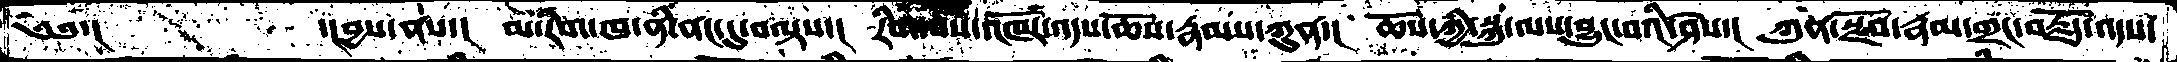༄༅་།      ་།བྱས་ནས་།  མ་རིག་ཁ་ནི་ནང་དུ་བལྟས་།  རིག་པས་འཁོར་འདས་ཆོས་རྣམས་ཀུན་།  ཆོས་ཀྱི་སྐུ་ལས་བྱུང་བའི་ཤེས་།  ཀུན་སྫོབ་རྣམ་གྲང་བརྗོད་འདས་
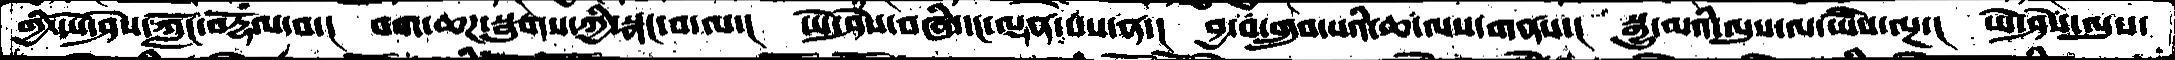གྱི་ཡེ་ཤེས་ཀློང་བརྡོལ་བ་།  བག་ཆཌ་སྦུགས་ཀྱི་སྣང་བ་ལ་།  ཡེ་ཤེས་བཞི་དང་ལྡན་པས་ན་།  བྱ་བ་གྲུབ་པའི་ཆ་ལས་གནས་།  སྒྱུ་མའི་ལུས་ལ་ཡཻས་ལྔ་།  ཡེ་ཤེས་ལུས་
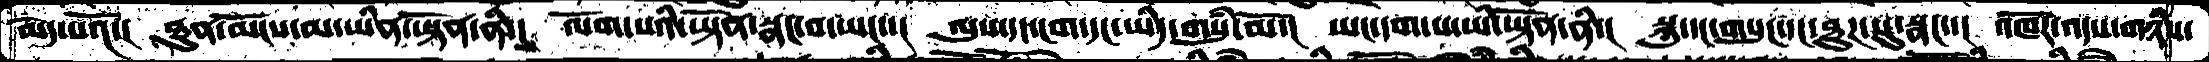མེད་པའོ་།  ཐུན་མོངས་མ་ཡིན་ཡྟོན་ནི་།  ལོག་པའི་ཡྟོན་སྣང་བ་ཡང་་།  ལུས་དང་ངག་དང་ཡིད་གསུཾ་མོ་།  ཡང་དག་པ་ཡི་ཡྟོན་ནི་།  སྐུ་དང་གསུང་དང་ཐུཌ་སུ་སྣང་་།  འཁོར་འདས་གཉིས་
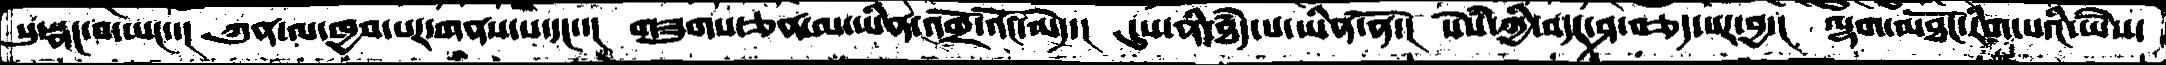སུ་སྣང་བ་ཡང་་།  ཀུན་ལ་ཁྱབ་པར་གནས་པ་དང་་།  གཟུགས་ཅན་མ་ཡིན་འགྲོ་འོང་མེད་།  དུས་ནི་ཐཾད་པ་ཡིན་ནོ་།  སེཾས་ཀྱི་བདར་ཤ་བཅད་པར་བྱ་།  ལྷག་མཐོང་རིག་པའི་ཡཻས་
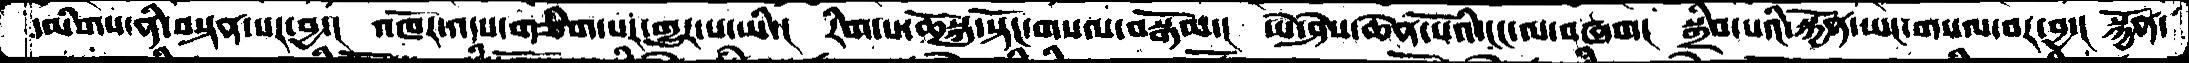དམིགས་ནི་བསྟན་པར་བྱ་།  འཁོར་འདས་གཅིག་པར་གྱུར་པ་ཡི་།  རིག་པ་ཆོསྐུ་སྟོང་གསལ་བསྒོམ་།  ཡེ་ཤེས་ཆེན་པོའི་ངང་ལ་བཞག།  སྒྲིབ་པའི་སྐྱོན་ཡང་གསལ་བར་བྱ་།  སྐྱོན་
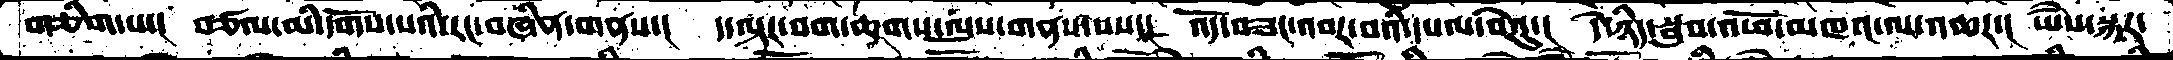གཅིག་པ་།  བཙལ་མི་དགོས་པའི་རང་བཞིན་གནས་།  ད་ལྟར་བག་ཆགས་ལུས་གནས་པས་།  འོད་བཟང་འབར་བའི་དཔལ་བེའུ་།  དེ་ཉིད་སྦུབ་འཕོ་མཁའ་ལ་འཆར་།  ཡཻས་སྐར་
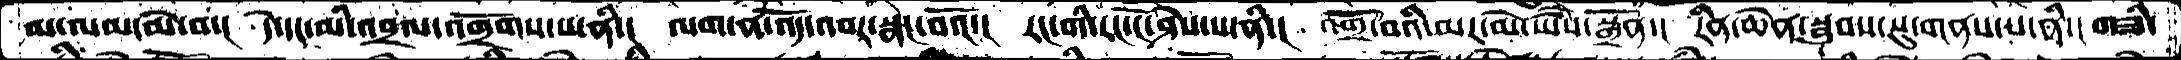མ་ལམ་མེ་བ་།  དེ་དང་མི་འབྲལ་འགྲོགས་པ་ནི་།  ལག་ན་འོད་འབར་སྣང་བའོ་།  རང་གི་རང་ངོ་ཤེས་པ་ནི་།  འགྲོ་བའི་མར་མེ་ཡཻས་སྒྲོན་། རིན་ཆེན་སྦུབས་སུ་གནས་པ་ནི་།  གཟི་
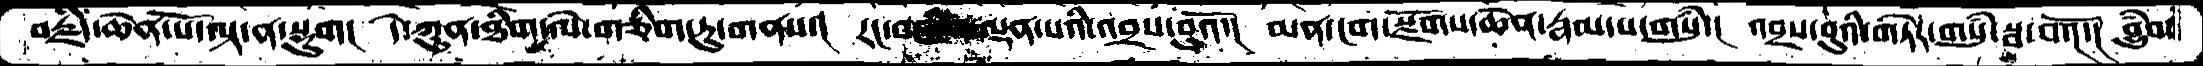བརྗིད་ཆེན་པོ་ལྟ་ན་སྡུག།  དེ་ཀུན་ཐིག་ལེ་གཅིག་ཏུ་གནས་།  རང་བཞིན་   ལྡན་པའི་འབྲས་བུའོ་།  མན་ངག་སྫོགས་ཆེན་རྣམ་པ་གསུཾ་།  འབྲས་བུའི་གཏེར་གསུཾ་སྦ་བའོ་།  བྱུཾབ་
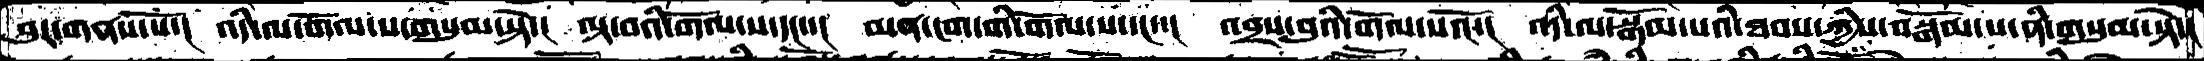བུར་གནས་སོ་།  འདི་ལ་གོལ་ས་གསུམ་སྟེ་།  ལྟ་བའི་གོལ་ས་དང་་།  མན་ངག་གི་གོལ་ས་དང་་།  འབྲས་བུའི་གོལ་སའོ་།  འདི་ལ་སྒོམ་པའི་ཐབས་ཀྱིས་བསྒོམ་པ་ནི་གསུམ་སྟེ་།
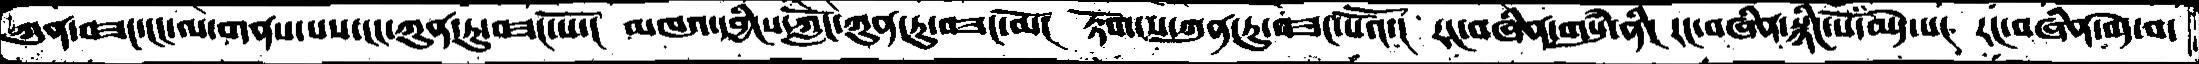ཀུན་བཟང་ངང་ལ་གནས་པས་ངང་ཀུན་ཏུ་བཟང་པོ་།  མཁའ་དབྱིངས་ཀློངེ་ཀུན་ཏུ་བཟང་མོ།  རྟོག་པ་ཀུན་ཏུ་བཟང་པོའོ་།  རང་བཞིན་གསུཾ་ནི་རང་བཞིན་སྙིང་པོ་མེད་པ།  རང་བཞིན་བདེ་བ་
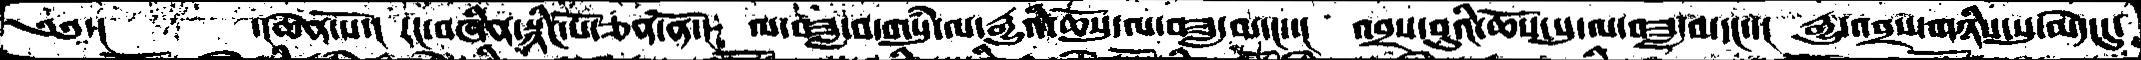༄༅་།      ་།ཆེན་པོ་།  རང་བཞིན་སྙིང་པོ་ཅན་ནོ་།  ལ་བཟླ་བ་གསུཾ་ལ་རྒྱུའི་ཆོསུ་ལ་བཟླ་བ་དང་་།  འབྲས་བུའི་ཆོས་སུ་ལ་བཟླ་བ་དང་་།  རྒྱུ་འབྲས་གཉིས་སུ་མེད་དུ་
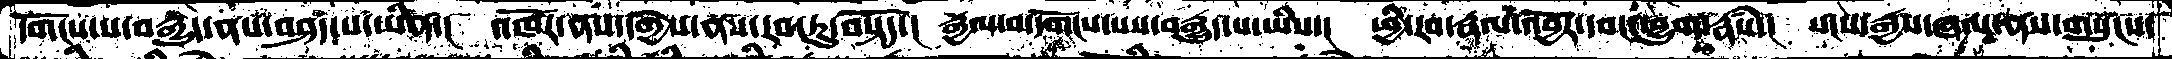དགོངས་པ་བརྒྱུད་ནས་བཤད་པ་ཡིན་།  འཁོར་ནས་དགྱེས་ནས་རབ་ཏུ་བསྟོད་།  རྒྱལ་བ་དགོངས་པས་བརྒྱུད་པ་ཡིས་།  ཕྱི་རབ་རྣལ་འབྱོར་དབང་ཕྱུག་རྣཾས་།  སངས་རྒྱས་ཞལ་ནས་གསུངས་
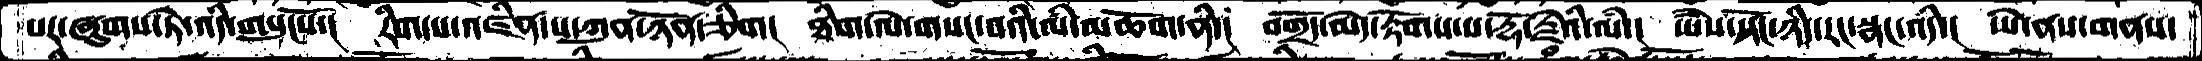པར་ཞུགས་ཏེ་འདི་གསུངསོ་།  རིག་པ་འཛིན་པ་ཀུན་ཉོན་ཅིག།  ཐིག་ལེ་གསང་བའི་ལཾ་མཆོག་ནི་།  བགྲོད་མེད་རྟོགས་པ་རྡོ་རྗེའི་ལཾ་།  ཡཻས་སྟོང་ཉིད་རང་སྣང་འདི་།  ཡེ་ནས་གནས་
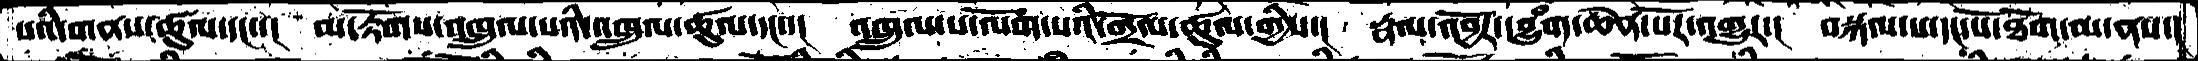པའི་གནས་ཚུལ་དང་་།  མ་རྟོགས་འཁྲུལ་པའི་འཁྲུལ་ཚུལ་དང་་།  འཁྲུལ་པ་ལོག་པའི་གྲོལ་ཚུལ་གྱིས་།  རྣལ་འབྱོར་དབྱུཾག་ཆེན་པོར་འགྱུར་།  བསྐལ་པ་དང་པོ་ཐོག་མ་ནས་།
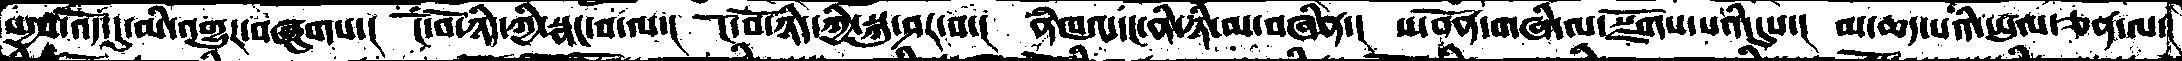སདྱས་འོད་དུ་མི་འགྱུར་བཞུགས་།  ངོ་བོ་ཉིད་ཀྱི་སྣང་བ་ལ་།  ངོ་བོ་ཉིད་ཀྱི་སྐུ་ཤར་བ་།  ནཾཁའ་དང་ནི་ཉི་མ་བཞིན་།  ས་བོན་གཞི་ལ་སྫོགས་པའི་དུས་།  མ་ཆད་པའི་ཡུལ་ཅན་ལ་།
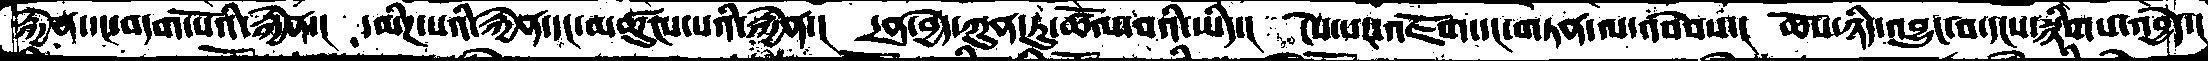རྐྱེན་དང་བདག་པོའི་རྐྱེན་།  དམིཌ་པའི་རྐྱེན་དང་མཚུངས་པའི་རྐྱེན་།  དྲན་བྱེད་ཀུན་ཏུ་ཚོལ་བའི་ཡིད་།  ངེས་པར་འཇོག་དང་གཏན་ལ་འབེབས་།  ཆོས་ཉིད་འབྱུང་བ་དངས་སྙིགས་འབྱེད་།
